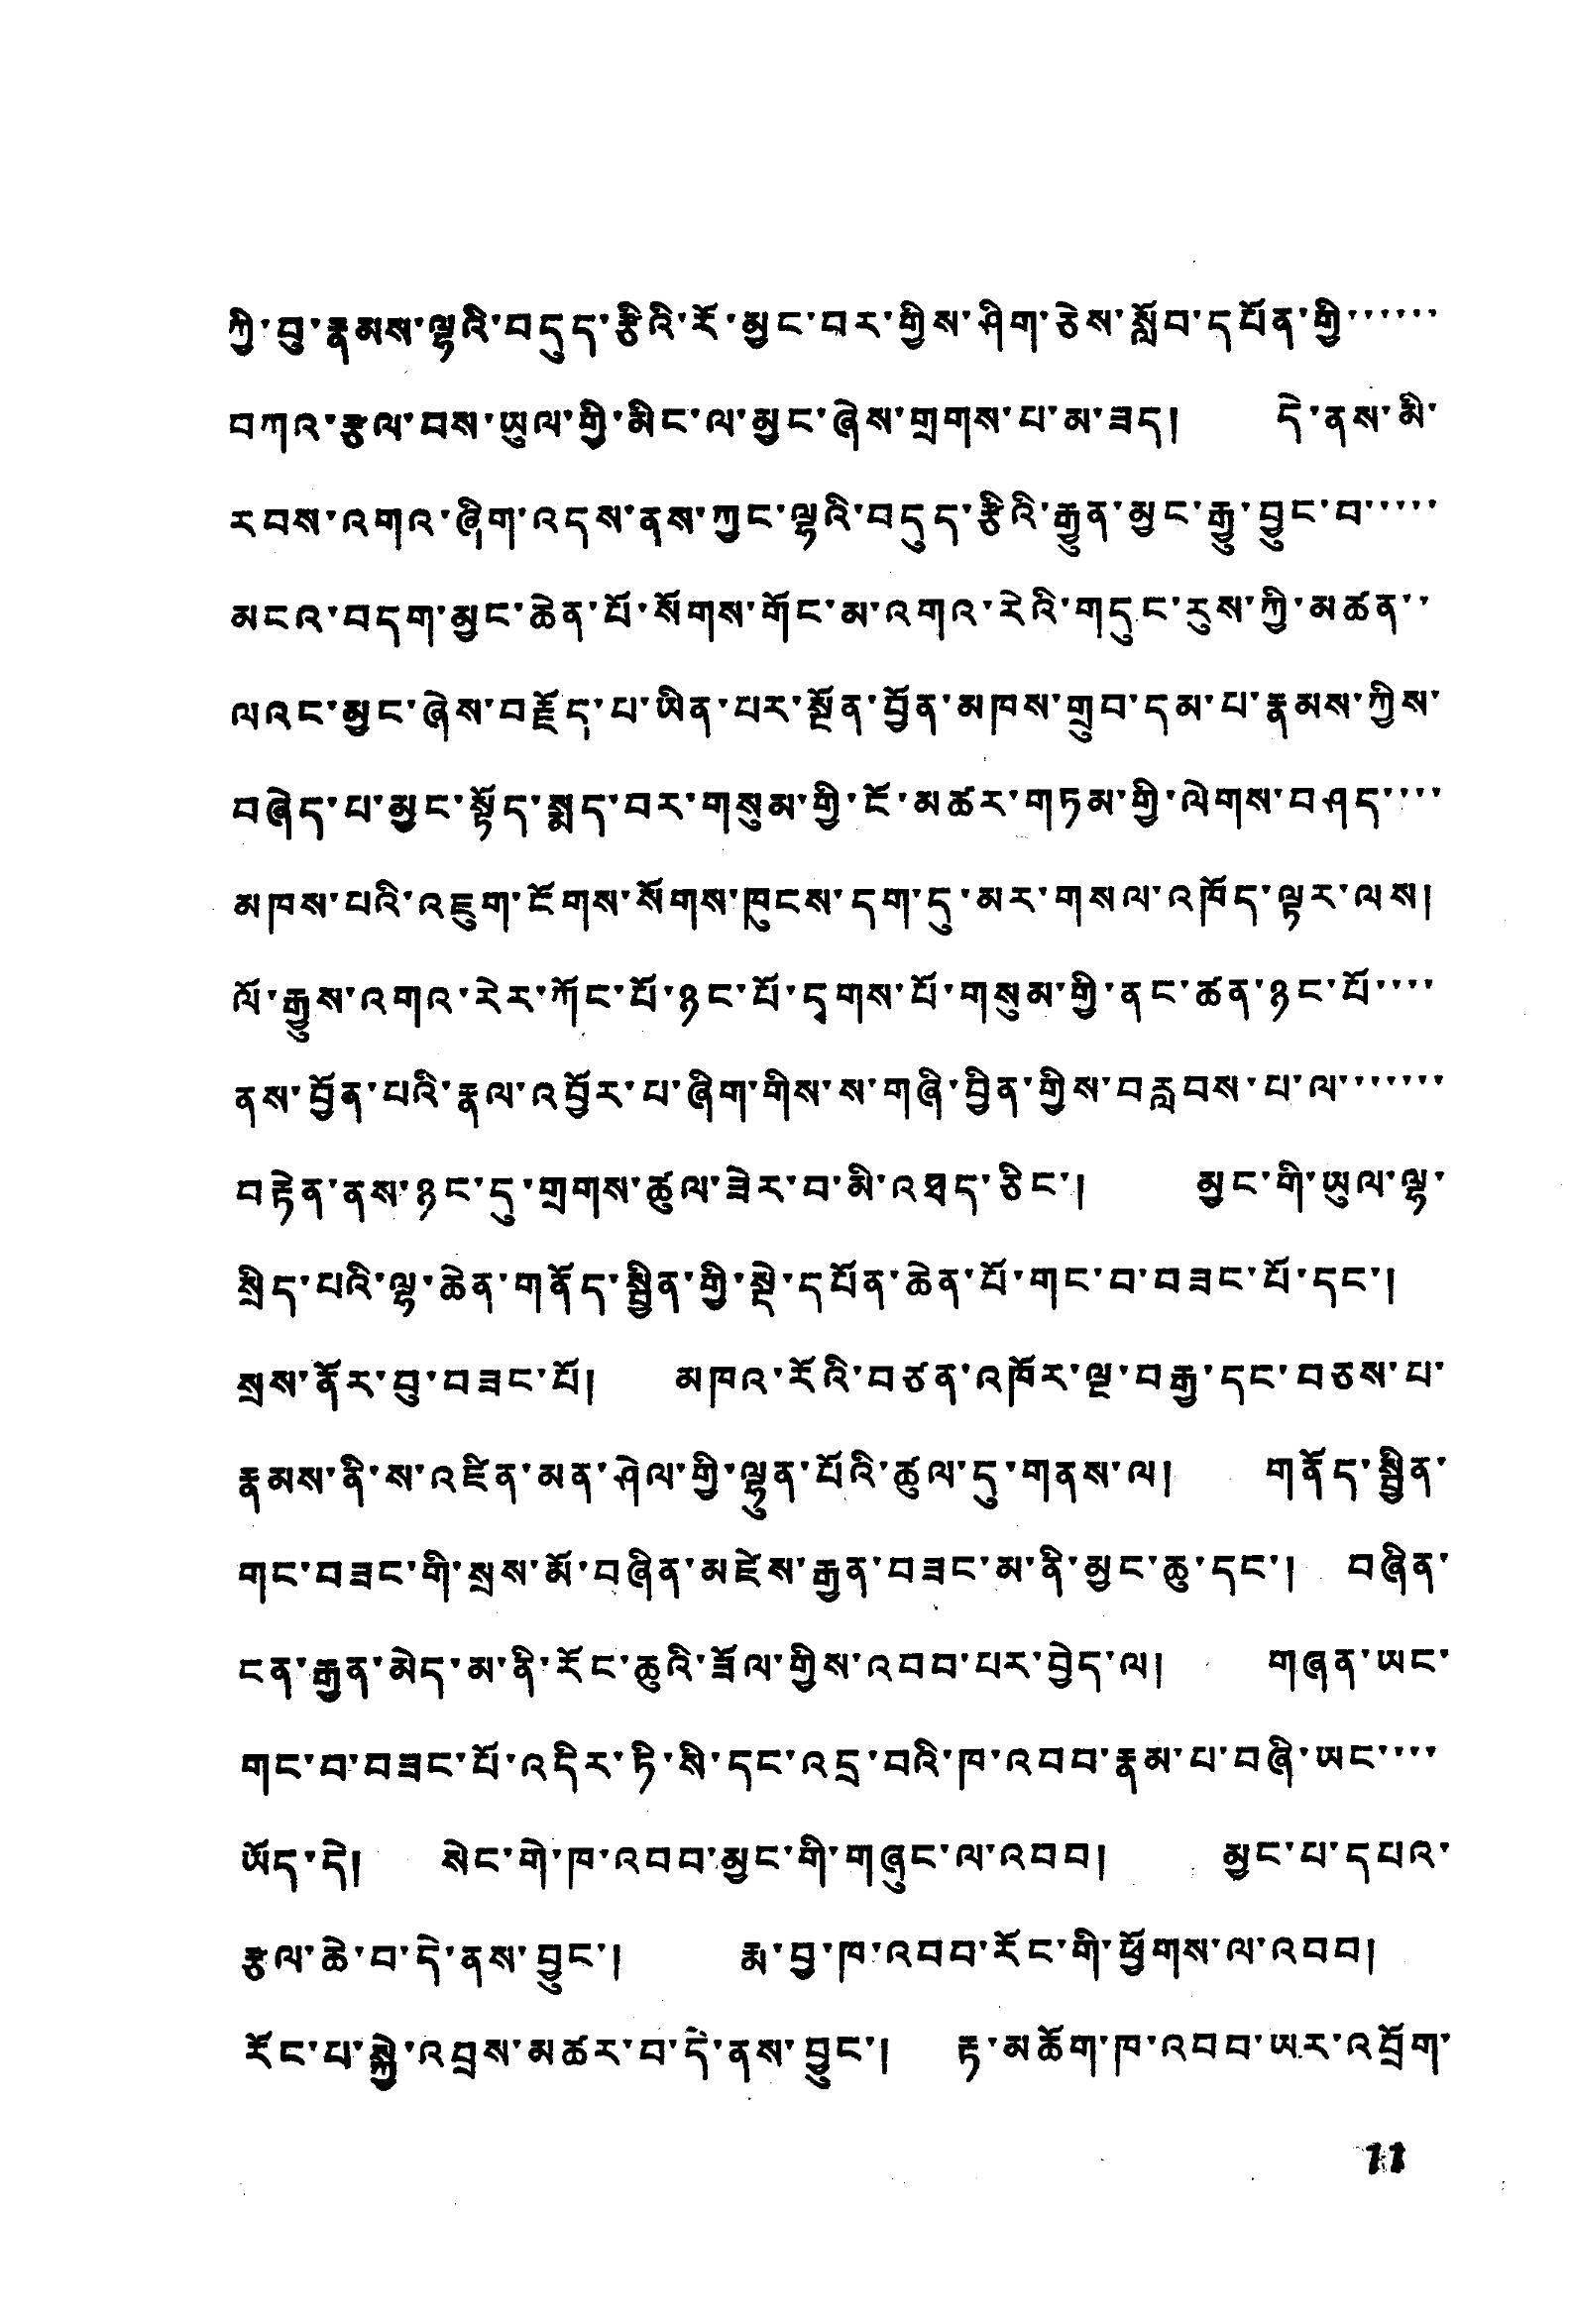ཀྱི་བུ་རྣམས་ལྷའི་བདུད་རྩིའི་རོ་མྱང་བར་གྱིས་ཤིག་ཅེས་སློབ་དཔོན་གྱི་་་་་་
བཀའ་རྩལ་བས་ཡུལ་གྱི་མིང་ལ་མྱང་ཞེས་གྲགས་པ་མ་ཟད། དེ་ནས་མི་
རབས་འགའ་ཞིག་འདས་ནས་ཀྱང་ལྷའི་བདུད་རྩིའི་རྒྱུན་མྱང་རྒྱ་བྱུང་བ་་་་་
མངའ་བདག་མྱང་ཆེན་པོ་སོགས་གོང་མ་འགའ་རེའི་གདུང་རུས་ཀྱི་མཚན་་
ལའང་མྱང་ཞེས་བརྗོད་པ་ཡིན་པར་སྔོན་བྱོན་མཁས་གྲུབ་དམ་པ་རྣམས་ཀྱིས་
བཞེད་པ་མྱང་སྟོད་སྨད་བར་གསུམ་གྱི་ངོ་མཚར་གཏན་གྱི་ལེགས་བཤད་་་་
མཁས་པའི་འཇུག་ངོགས་སོགས་ཁུངས་དག་དུ་མར་གསལ་འཁོད་ལྟར་ལས།
ལོ་རྒྱུས་འགའ་རེར་ཀོང་པོ་ཉང་པོ་དྭགས་པོ་གསུམ་གྱི་ནང་ཚན་ཉང་པོ་་་་
ནས་བྱོན་པའི་རྣལ་འབྱོར་པ་ཞིག་གིས་ས་གཞི་བྱིན་གྱིས་བརླབས་པ་ལ་་་་་་་
བརྟེན་ནས་ཉང་དུ་གྲགས་ཚུལ་ཟེར་བ་མི་འཐད་ཅིང་། མྱང་གི་ཡུལ་ལྷ་
སྲིད་པའི་ལྷ་ཆེན་གནོད་སྦྱིན་གྱི་སྡེ་དཔོན་ཆེན་པོ་གང་བ་བཟང་པོ་དང་།
སྲས་ནོར་བུ་བཟང་པོ། མཁའ་རོའི་བཙན་འཁོར་ལྔ་བརྒྱ་དང་བཅས་པ་
རྣམས་ནི་ས་འཛིན་མན་ཤེལ་གྱི་ལྷུན་པོའི་ཚུལ་དུ་གནས་ལ། གནོད་སྦྱིན་
གང་བཟང་གི་སྲས་མོ་བཞིན་མཛེས་རྒྱན་བཟང་མ་ནི་མྱང་ཆུ་དང་། བཞིན་
ངན་རྒྱན་མེད་མ་ནི་རོང་ཆུའི་ཟོལ་གྱིས་འབབ་པར་བྱེད་ལ། གཞན་ཡང་
གང་པ་བཟང་པོ་འདིར་ཏི་སི་དང་འདྲ་བའི་ཁ་འབབ་རྣམ་པ་བཞི་ཡང་་་་
ཡོད་དེ། སེང་གེ་ཁ་འབབ་མྱང་གི་གཞུང་ལ་འབབ། མྱང་པ་དཔའ་
རྩལ་ཆེ་བ་དེ་ནས་བྱུང་། རྨ་བྱ་ཁ་འབབ་རོང་གི་ཕྱོགས་ལ་འབབ།
རོང་པ་སྐྱེ་འབྲས་མཚར་བ་དེ་ནས་བྱུང་། རྟ་མཆོག་ཁ་འབབ་ཡར་འབྲོག་
11
